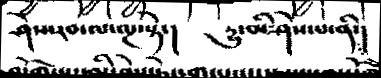ཤེས་རབ་ལ་ལྔ་སྟེ་།   དྱུ་མི་ཤེས་པ་ནི་།
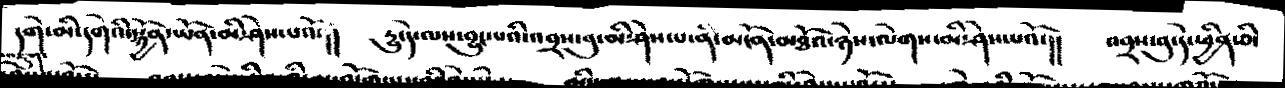དགེ་མི་དགེའི་སྐྱོན་ཡོན་མི་ཤེས་པའོ་།།  དྱུ་དེ་ལས་བྱུང་པའི་འབྲས་བུ་མི་ཤེས་པ་ནི་མངོན་མཐོའ་ཉེས་ལེགས་མི་ཤེས་པའོ་།།   འབྲས་བུ་དེ་ཕྱིན་ཅི་
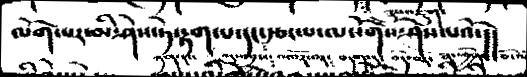ལོག་པར་མི་ཤེས་ཏེ་རྟག་པ་དང་རྩང་པ་ལསོགས་ཤེས་པའོ་།།
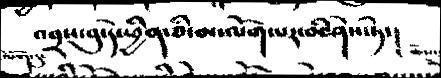འབྲས་བུ་དེ་ཕྱིན་ཅི་མ་ལོག་པར་མི་ཤེས་ཏེ་།
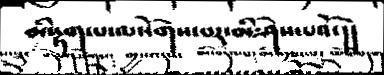མི་རྟག་པ་ལསོགས་པར་མི་ཤེས་པའོ་།།
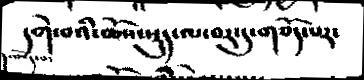དགེ་བའི་ཆོས་སྡུད་ལ་བར་དུ་གཅོད་པར་
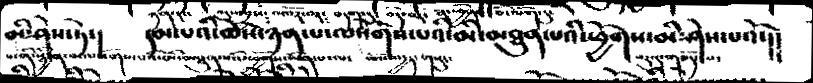མི་ཤེས་ཏེ་།  དམ་པའི་ཆོས་ཉན་པ་ལསོགས་པའི་མི་མཐུན་པའི་ཕྱོགས་མི་ཤེས་པའོ་།།
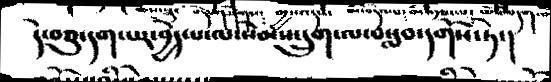དེ་བཅུ་དག་པར་བྱེད་པ་ལ་སེམས་དྲུག་ལ་བསླབ་དགོས་ཏེ་།
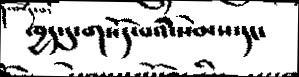ཁྱད་ད་གསོད་པའི་སེམས་དང་
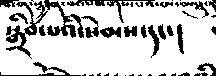སྒྲིབ་པའི་སེམས་དང་།
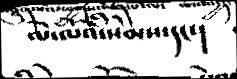ལེ་ལོའི་སེམས་དང་།
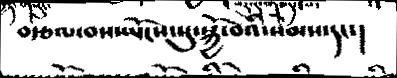བརྩལ་བས་ཡོངས་སུ་སྐྱོ་བའི་སེམས་དང་།
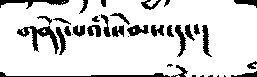གནོད་པའི་སེམས་དང་།
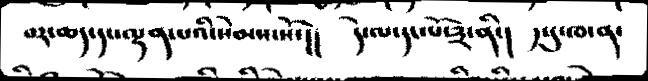བར་ཆད་དང་ལྡན་པའི་སེམས་སོ་།།     དེ་ལ་དང་པོ་༣་ནི་།  ༡་དུ་ཁ་ན་
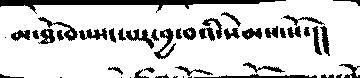མ་ཐོ་བ་སྤང་པར་བྱ་བའི་སེམས་སོ་།།
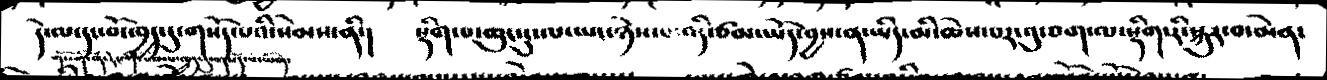དེ་ལ་དང་བོ་ཁྱད་དུ་གསོད་པའི་སེམས་ནི་།    སྡིག་པ་ཆུང་ངུ་ལ་ཡང་ཉེས་པ་འདི་ཙམ་ཡོད་བྱས་ན་ཡིད་མི་ཆེས་པར་འུ་ཅག་ལ་སྡིག་རི་སྐུར་བ་མིན་
